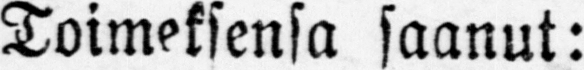Toimeksensa saanut:
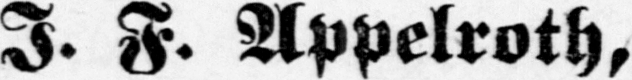I. F. Appelroth,
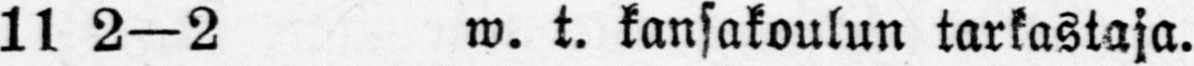11 2—2 w. L. kansakoulun tarkastaja.
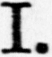I.
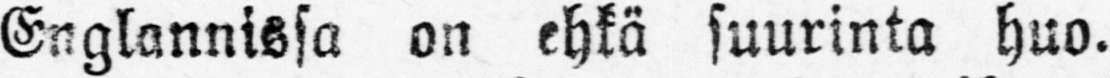Englannissa on ehkä suurinta huo.
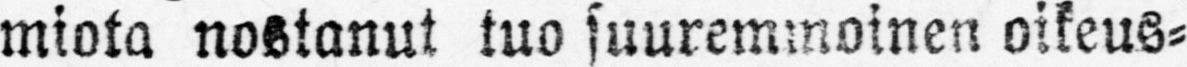miota nostanut tuo suuremmoinen oikeus-
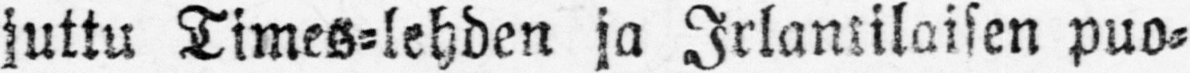juttu Times-lehden ja Irlantilaisen puo-
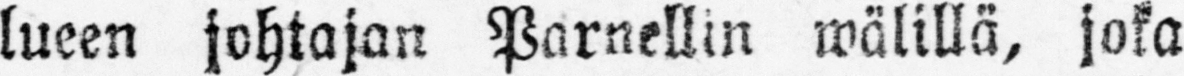lueen johtajan Parnellin wälillä, joka
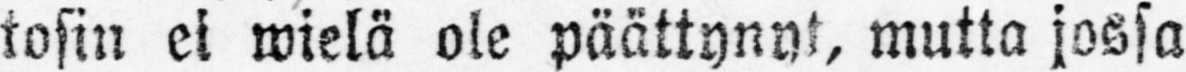tosin ei wielä ole päättynyt, mutta jossa
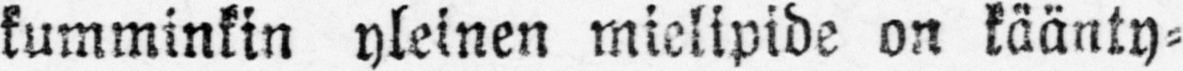kumminkin yleinen mielipide on käänty-
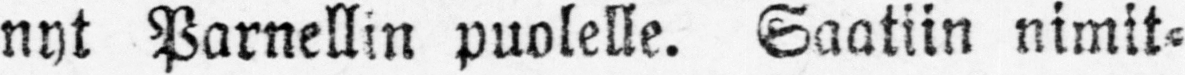nyt Parnellin puolelle. Saatiin nimit-
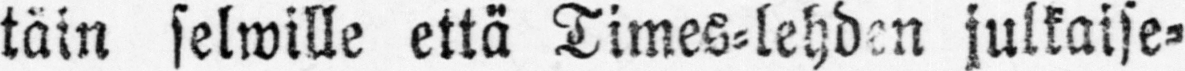täin selwille että Times-lehden julkaise-
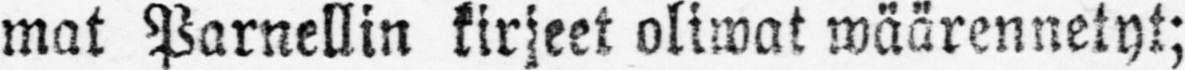mat Parnellin kirjeet oliwat wäärennetyt;
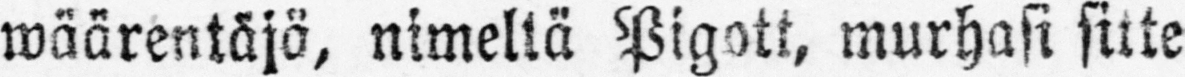wäärentäjä, nimeltä Pigott, murhasi sitte
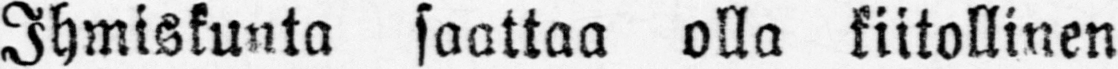Ihmiskunta saattaa olla kiitollinen
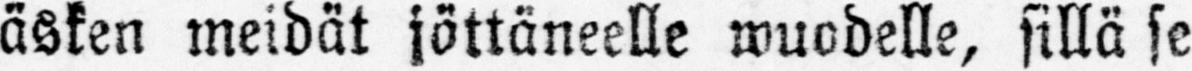äsken meidät jättäneelle wuodelle, sillä se
